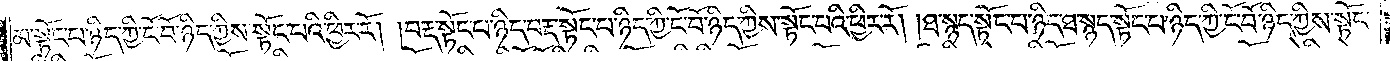མ་སྟོང་པ་ཉིད་ཀྱི་ངོ་བོ་ཉིད་ཀྱིས་སྟོང་པའི་ཕྱིར་རོ། །བརྡ་སྟོང་པ་ཉིད་བརྡ་སྟོང་པ་ཉིད་ཀྱི་ངོ་བོ་ཉིད་ཀྱིས་སྟོང་པའི་ཕྱིར་རོ། །ཐ་སྙད་སྟོང་པ་ཉིད་ཐ་སྙད་སྟོང་པ་ཉིད་ཀྱི་ངོ་བོ་ཉིད་ཀྱིས་སྟོང་
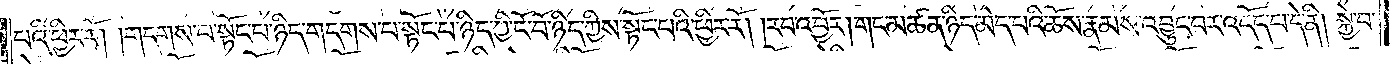པའི་ཕྱིར་རོ། །གདགས་པ་སྟོང་པ་ཉིད་གདགས་པ་སྟོང་པ་ཉིད་ཀྱི་ངོ་བོ་ཉིད་ཀྱིས་སྟོང་པའི་ཕྱིར་རོ། །རབ་འབྱོར། གང་མཚན་ཉིད་མེད་པའི་ཆོས་རྣམས་འབྱུང་བར་འདོད་པ་དེ་ནི། སྐྱེ་བ་
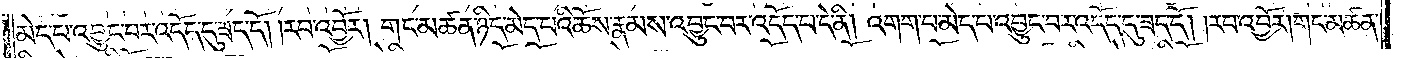མེད་པ་འབྱུང་བར་འདོད་དུ་ཟད་དོ། །རབ་འབྱོར། གང་མཚན་ཉིད་མེད་པའི་ཆོས་རྣམས་འབྱུང་བར་འདོད་པ་དེ་ནི། འགག་པ་མེད་པ་འབྱུང་བར་འདོད་དུ་ཟད་དོ། །རབ་འབྱོར། གང་མཚན་
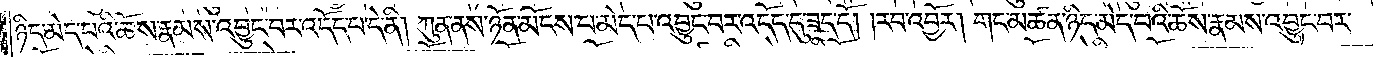ཉིད་མེད་པའི་ཆོས་རྣམས་འབྱུང་བར་འདོད་པ་དེ་ནི། ཀུན་ནས་ཉོན་མོངས་པ་མེད་པ་འབྱུང་བར་འདོད་དུ་ཟད་དོ། །རབ་འབྱོར། གང་མཚན་ཉིད་མེད་པའི་ཆོས་རྣམས་འབྱུང་བར་
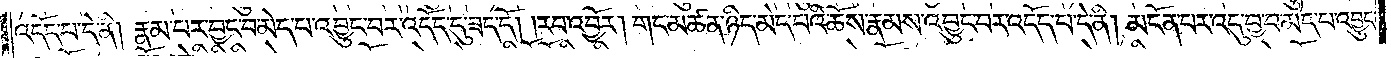འདོད་པ་དེ་ནི། །རྣམ་པར་བྱང་བ་མེད་པ་འབྱུང་བར་འདོད་དུ་ཟད་དོ། །རབ་འབྱོར། གང་མཚན་ཉིད་མེད་པའི་ཆོས་རྣམས་འབྱུང་བར་འདོད་པ་དེ་ནི། མངོན་པར་འདུ་བྱ་བ་མེད་པ་འབྱུང་
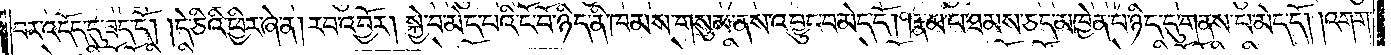བར་འདོད་དུ་ཟད་དོ། །དེ་ཅིའི་ཕྱིར་ཞེ་ན། རབ་འབྱོར། སྐྱེ་བ་མེད་པའི་ངོ་བོ་ཉིད་ནི་ཁམས་གསུམ་ནས་འབྱུང་བ་མེད་དོ། །རྣམ་པ་ཐམས་ཅད་མཁྱེན་པ་ཉིད་དུ་གནས་པ་མེད་དོ། །འགག་
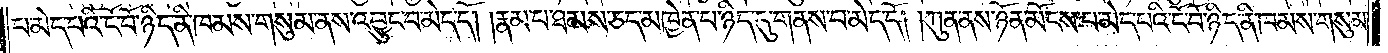པ་མེད་པའི་ངོ་བོ་ཉིད་ནི་ཁམས་གསུམ་ནས་འབྱུང་བ་མེད་དོ། །རྣམ་པ་ཐམས་ཅད་མཁྱེན་པ་ཉིད་དུ་གནས་པ་མེད་དོ། །ཀུན་ནས་ཉོན་མོངས་པ་མེད་པའི་ངོ་བོ་ཉིད་ནི་ཁམས་གསུམ་
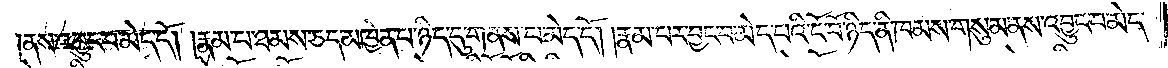ནས་འབྱུང་བ་མེད་དོ། །རྣམ་པ་ཐམས་ཅད་མཁྱེན་པ་ཉིད་དུ་གནས་པ་མེད་དོ། །རྣམ་པ་བྱང་བ་མེད་པའི་ངོ་བོ་ཉིད་ནི་ཁམས་གསུམ་ནས་འབྱུང་བ་མེད་
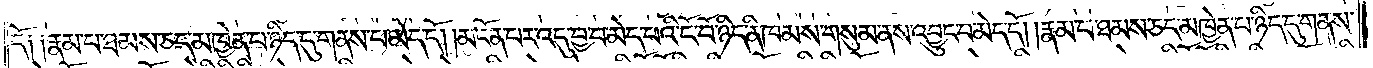དོ། །རྣམ་པ་ཐམས་ཅད་མཁྱེན་པ་ཉིད་དུ་གནས་པ་མེད་དོ། །མངོན་པར་འདུ་བྱ་བ་མེད་པའི་ངོ་བོ་ཉིད་ནི་ཁམས་གསུམ་ནས་འབྱུང་བ་མེད་དོ། །རྣམ་པ་ཐམས་ཅད་མཁྱེན་པ་ཉིད་དུ་གནས་
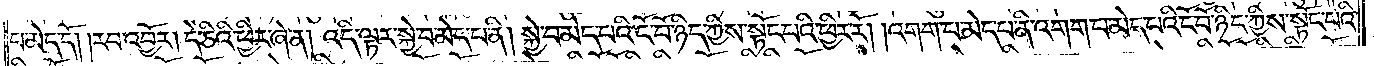པ་མེད་དོ། །རབ་འབྱོར། དེ་ཅིའི་ཕྱིར་ཞེ་ན། འདི་ལྟར་སྐྱེ་བ་མེད་པ་ནི། སྐྱེ་བ་མེད་པའི་ངོ་བོ་ཉིད་ཀྱིས་སྟོང་པའི་ཕྱིར་རོ། །འགག་པ་མེད་པ་ནི་འགག་པ་མེད་པའི་ངོ་བོ་ཉིད་ཀྱིས་སྟོང་པའི་
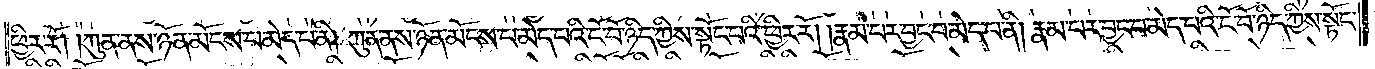ཕྱིར་རོ། །ཀུན་ནས་ཉོན་མོངས་པ་མེད་པ་ནི། ཀུན་ནས་ཉོན་མོངས་པ་མེད་པའི་ངོ་བོ་ཉིད་ཀྱིས་སྟོང་པའི་ཕྱིར་རོ། །རྣམ་པར་བྱང་བ་མེད་པ་ནི། རྣམ་པར་བྱང་བ་མེད་པའི་ངོ་བོ་ཉིད་ཀྱིས་སྟོང་
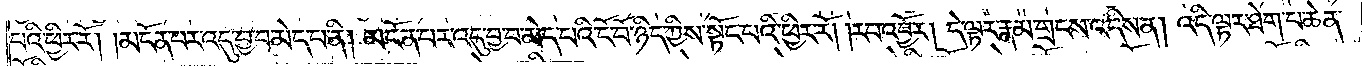པའི་ཕྱིར་རོ། མངོན་པར་འདུ་བྱ་བ་མེད་པ་ནི། མངོན་པར་འདུ་བྱ་བ་མེད་པའི་ངོ་བོ་ཉིད་ཀྱིས་སྟོང་པའི་ཕྱིར་རོ། །རབ་འབྱོར། དེ་ལྟར་རྣམ་གྲངས་འདིས་ན། འདི་ལྟར་ཐེག་པ་ཆེན་
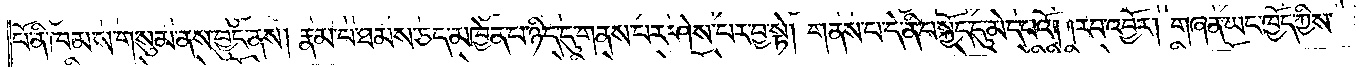པོ་ནི་ཁམས་གསུམ་ནས་བྱུང་ནས། རྣམ་པ་ཐམས་ཅད་མཁྱེན་པ་ཉིད་དུ་གནས་པར་ཤེས་པར་བྱ་སྟེ། གནས་པ་དེ་ནི་བསྐྱོད་དུ་མེད་པའོ། །རབ་འབྱོར། གཞན་ཡང་ཁྱོད་ཀྱིས་
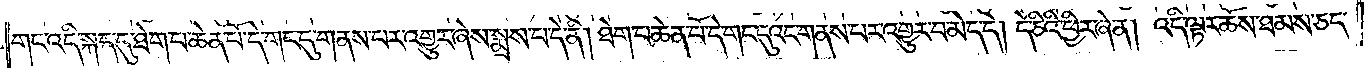གང་འདི་སྐད་དུ་ཐེག་པ་ཆེན་པོ་དེ་གང་དུ་གནས་པར་འགྱུར་ཞེས་སྨྲས་པ་དེ་ནི། ཐེག་པ་ཆེན་པོ་དེ་གང་དུའང་གནས་པར་འགྱུར་བ་མེད་དེ། དེ་ཅིའི་ཕྱིར་ཞེ་ན། འདི་ལྟར་ཆོས་ཐམས་ཅད་
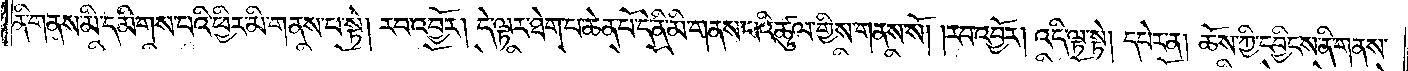ནི་གནས་མི་དམིགས་པའི་ཕྱིར་མི་གནས་པ་སྟེ། རབ་འབྱོར། དེ་ལྟར་ཐེག་པ་ཆེན་པོ་དེ་ནི་མི་གནས་པའི་ཚུལ་གྱིས་གནས་སོ། །རབ་འབྱོར། འདི་ལྟ་སྟེ། དཔེར་ན། ཆོས་ཀྱི་དབྱིངས་ནི་གནས་
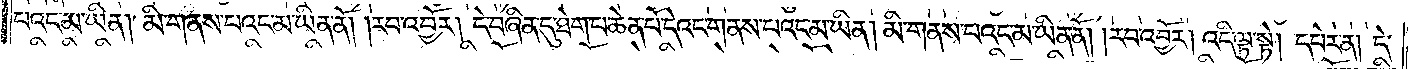པའང་མ་ཡིན། མི་གནས་པའང་མ་ཡིན་ནོ། །རབ་འབྱོར། དེ་བཞིན་དུ་ཐེག་པ་ཆེན་པོ་དེའང་གནས་པའང་མ་ཡིན་མི་གནས་པའང་མ་ཡིན་ནོ། །རབ་འབྱོར། འདི་ལྟ་སྟེ། དཔེར་ན། དེ་
